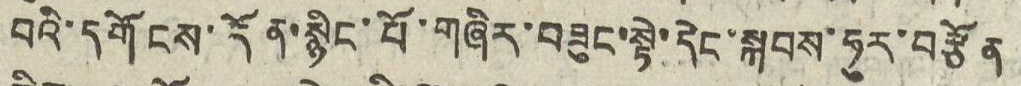བའི་དགོངས་དོན་སྙིང་པོ་གཞིར་བཟུང་སྟེ་དེང་སྐབས་ཧུར་བརྩོན
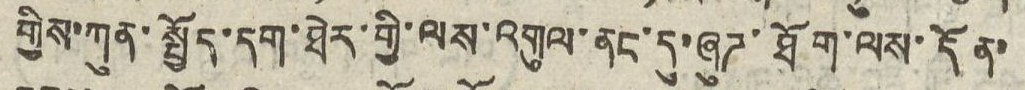གྱིས་ཀུན་སྤྱོད་དག་ཐེར་གྱི་ལས་འགུལ་ནང་དུ་ཞུཌ་ཐོག་ལས་དོན་
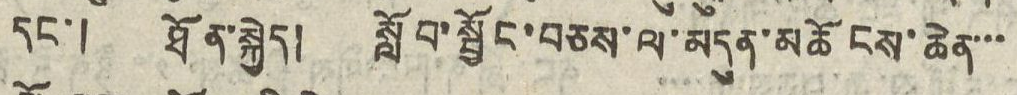དང་། ཐོན་སྐྱེད། སློབ་སྦྱོང་བཅས་ལ་མདུན་མཆོངས་ཆེན་་་
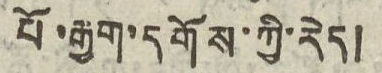པོ་རྒྱག་དགོས་ཀྱི་རེད།
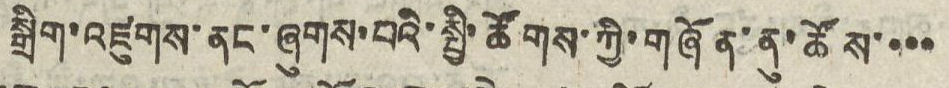སྒྲིག་འཛུགས་ནང་ཞུགས་པའི་སྤྱི་ཚོགས་ཀྱི་གཞོན་ནུ་ཚོས་་་་
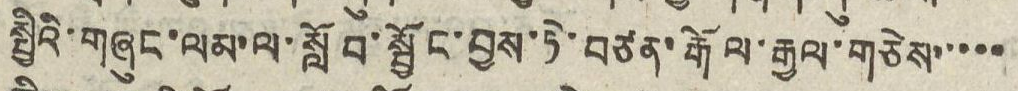སྤྱིའི་གཞུང་ལམ་ལ་སློབ་སྦྱོང་བྱས་ཏེ་བཙན་རྒོལ་རྒྱལ་གཅེས་་་་་
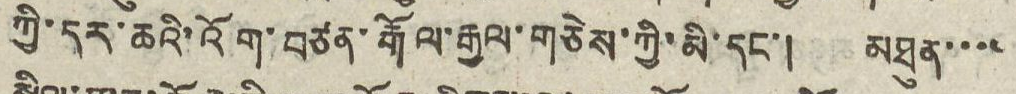ཀྱི་དར་ཆའི་འོག་བཙན་རྒོལ་རྒྱལ་གཅེས་ཀྱི་མི་དང་། མཐུན་་་་
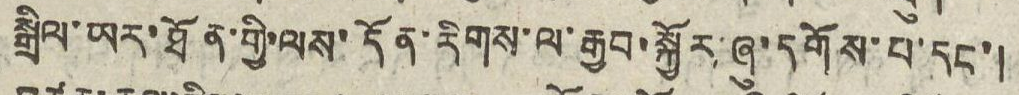སྒྲིལ་ཡར་ཐོན་གྱི་ལས་དོན་རིགས་ལ་རྒྱབ་སྐྱོར་ཞུ་དགོས་པ་དང་།
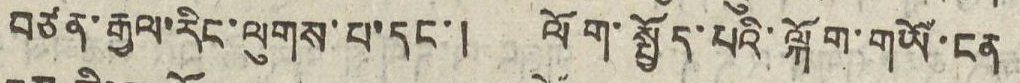བཙན་རྒྱལ་རིང་ལུགས་པ་དང་། ལོག་སྤྱོད་པའི་ལྐོག་གཡོ་ངན
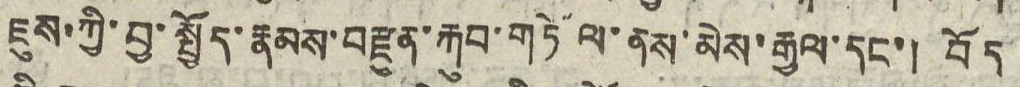ཇུས་ཀྱི་བྱ་སྤྱོད་རྣམས་བརྫུན་རྐུབ་གཏོལ་ནས་མེས་རྒྱལ་དང་། བོད
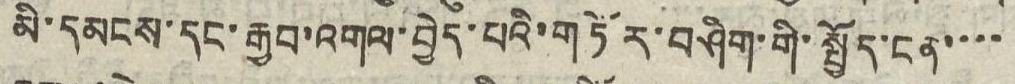མི་དམངས་དང་རྒྱབ་འགལ་བྱེད་པའི་གཏོར་བཤིག་གི་སྤྱོད་ངན་་་་
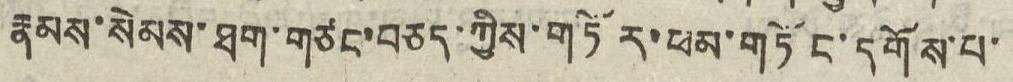རྣམས་སེམས་ཐག་གཙང་བཅད་ཀྱིས་གཏོར་ཕམ་གཏོང་དགོས་པ་
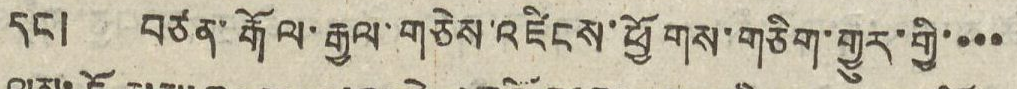དང། བཙན་རྒོལ་རྒྱལ་གཅེས་འཛིངས་ཕྱོགས་གཅིག་གྱུར་གྱི་་་་
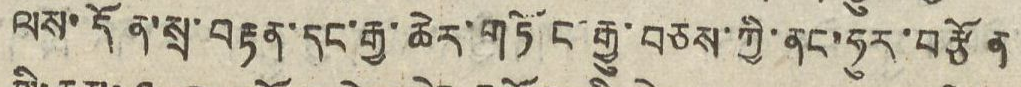ལས་དོན་སྲ་བརྟན་དང་རྒྱ་ཆེར་གཏོང་རྒྱུ་བཅས་ཀྱི་ནང་ཧུར་བརྩོན
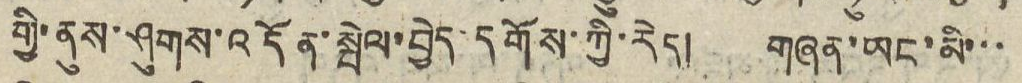གྱི་ནུས་ཤུགས་འདོན་སྤེལ་བྱེད་དགོས་ཀྱི་རེད། གཞན་ཡང་མི་་་
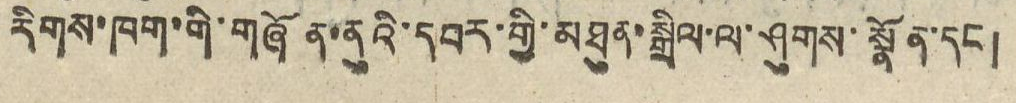རིགས་ཁག་གི་གཞོན་ནུའི་དབར་གྱི་མཐུན་སྒྲིལ་ལ་ཤུགས་སྣོན་དང།
